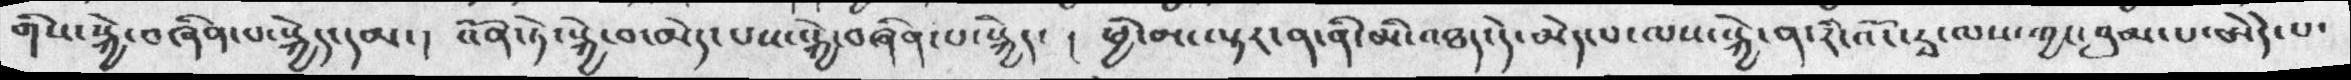གིས་སྐྱེ་བཞིན་པ་སྐྱེད་དམ་།  འོན་ཏེ་སྐྱེ་བ་མེད་པས་སྐྱེ་བཞིན་པ་སྐྱེད་ ། ཕྱི་མ་ལྟར་ན་ནི་མི་འཐད་དེ་མེད་པ་ལས་སྐྱེ་ན་རི་འོང་རྭ་ལས་ཀྱང་བུམ་པ་ཨེདེ་པ་
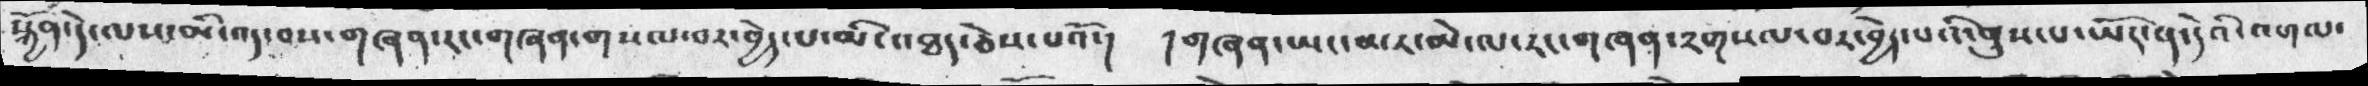སྐྱོན་དེ་ལས་མི་འདུ་བས་གཞན་རང་གཞན་གསལ་བར་བྱེད་པ་མི་འཐད་ཅེས་པའོ་།  །གཞན་ཡང་མར་མེ་ལ་རང་གཞན་༢གསལ་བར་བྱེད་པའི་ནུས་པ་ཡོད་ན་དེའི་འགལ་
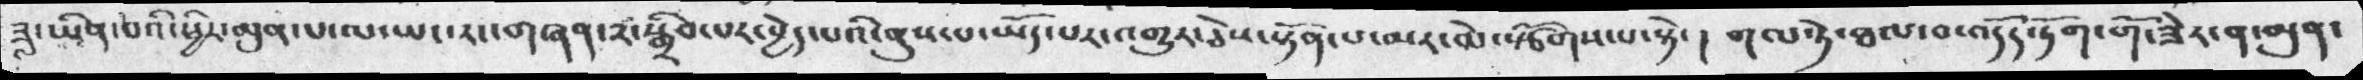ཟླ་ཡིན་པའི་ཕྱིར་མུན་པ་ལ་ཡང་རང་གཞན་༢་སྒྲིབ་པར་བྱེད་པའི་ནུས་པ་ཡོད་པར་འགྱུར་ཅེས་སྟོན་པ་མར་མེ་སྩོགས་པ་སྟེ་། གལ་ཏེ་ཐལ་བ་འདོད་ཏོག་གོ་ཟེར་ན་མུན་
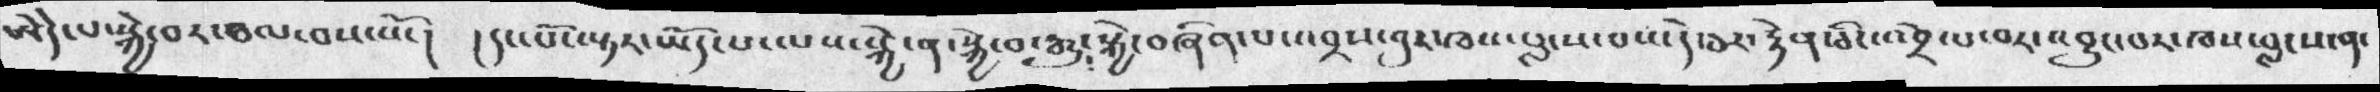ཨེདེ་པ་སྐྱེ་བར་ཐལ་བས་སོ་། །དང་པོ་ལྟར་ཡོད་པ་ལས་སྐྱེ་ན་སྐྱེ་བ་རྒྱུ་སྐྱེ་བཞིན་པ་འབྲས་བུར་ཁས་བླངས་པས་དེ་ཅར་རྟེན་ཅིང་འབྲེལ་བར་འབྱུང་པར་ཁས་བླངས་ན་
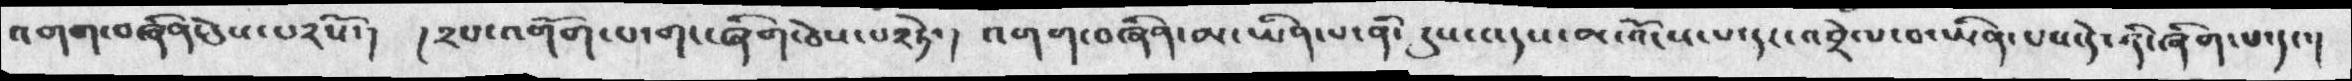འགག་བཞིན་དེས་པ༢སོ་།  །༢པ་འགོག་པ་གང་ཞིག་ཅེས་པ་༢ཏེ་།   འགག་བཞིན་མ་ཡིན་པ་ནི་དུས་འདས་མ་འོངས་པ་དང་འབྲེལ་བ་ཡིན་པས་དེ་ནི་ཞིག་པ་དང་།
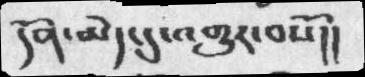དོན་མེད་དུ་འགྱུར་བསོ།།
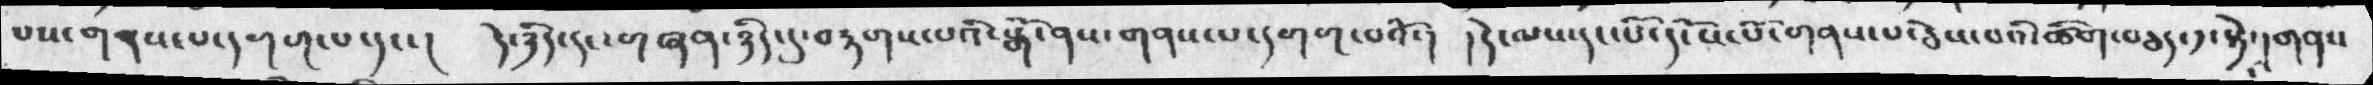པས་གནས་པ་དགག་པ་དང་།   དེ་ཉིད་དང་གཞན་ཉིད་དུ་བརྟགས་པའི་སྒོ་ནས་གནས་པ་དགག་པའོ་།   །དེ་ལས་དང་པོ་དངོས་པོ་གནས་པ་ཅེས་པའི་ཚིག་བཅད་༡་སྟེ།གནས
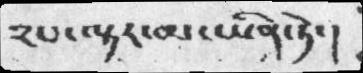༢པ་ལྟར་མ་ཡིན་ཏེ་།
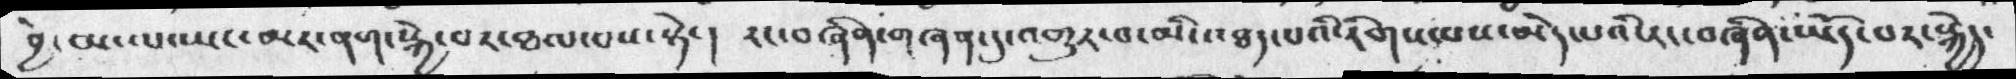བྱེ་མ་ལ་ཡང་མར་ནག་སྐྱེ་བར་ཐལ་པས་སྟེ་།  རང་བཞིན་གཞན་དུ་འགྱུར་བ་མི་འཐད་པའི་རིགས་པས་མེད་པའི་རང་བཞིན་ཡོད་པར་སྐྱེད་
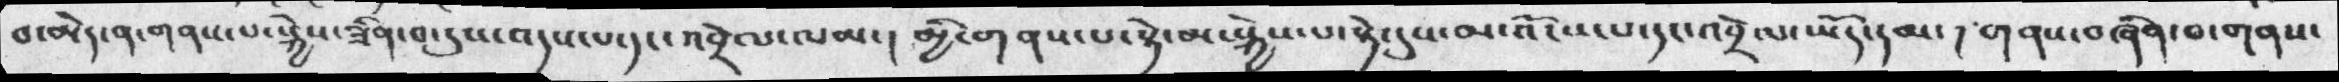བ་མེད་ན་གནས་པ་སྐྱེས་ཟིན་བ་དུས་འདས་པ་དང་འབྲེལ་ལམ་།  མྱི་གནས་པ་སྟེ་མ་སྐྱེས་པ་སྟེ་དུས་མ་འོངས་པ་དང་འབྲེལ་ཡོད་དམ་།  གནས་བཞིན་བ་གནས་
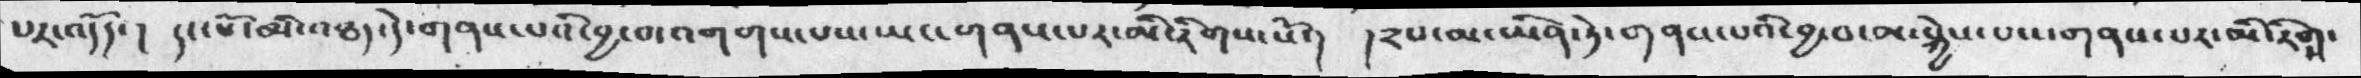པར་འདོད་།    དང་པོ་མི་འཐད་དེ་གནས་པའི་བྱ་བ་འགགས་པས་ཡང་དག་གནས་པར་མི་རིགས་སོ་།   །༢པ་མ་ཡིན་ཏེ་གནས་པའི་བྱ་བ་མ་སྐྱེས་པས་གནས་པར་མི་རིགས་
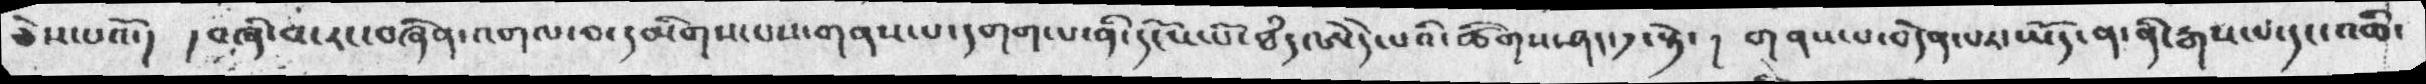ཅེས་པའོ་།  །བཞི་པ་རང་བཞིན་འགལ་བ་དམིགས་པས་གནས་པ་དགག་པ་ནི་དངོས་པོ་ཐཾད་ཨེདེ་པའི་ཚིགས་ཤད་༡་སྟེ་ །  གནས་པ་བདེན་པར་ཡོད་ན་ནི་རྒས་པ་དང་འཆི་
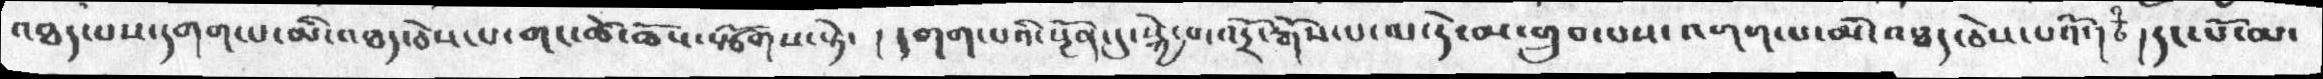འཐད་པས་དགག་པ་མི་འཐད་ཅེས་པ་གང་ཚེ་ཆོས་སྩོགས་སྟེ་   ། དགག་པའི་སྔོན་དུ་སྐྱེ་བ་འདྲོ་རྒོས་པ་མ་དེ་མ་གྲུབ་པསལའགག་པ་མི་འཐད་ཅེས་པའི་   །དང་པོ་མ་
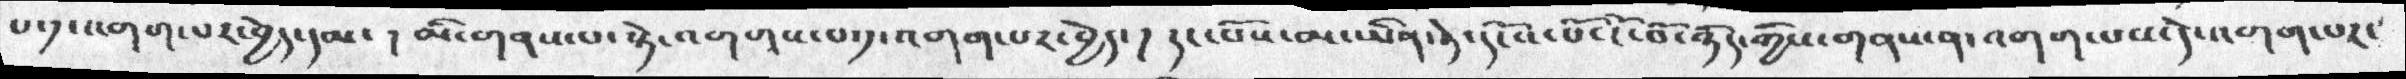པ་༡་འགག་པར་བྱེད་དམ་ ། མི་གནས་པ་སྟེ་འགགས་པ་༡་འགག་པར་བྱེད་ ། དང་པོས་མ་ཡིན་ཏེ་དངོས་པོ་ངོ་བོ་ཉིད་ཀྱིས་གནས་ན་འགག་པས་དེ་འགག་པར་
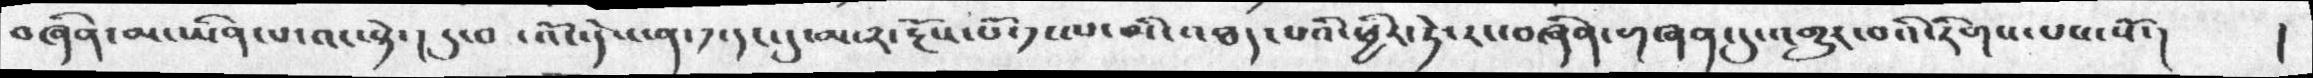བཞིན་མ་ཡིན་པ་འང་སྟེ་ ། དུ་བ་འོང་དེས་ན་༡་དང་དུམ་༢་རྔོས་པོ་༡་ལ་མི་འཐད་པའི་ཕྱིར་ཏེ་རང་བཞིན་གཞན་དུ་འགྱུར་བའི་རིགས་པས་སོ་།  །
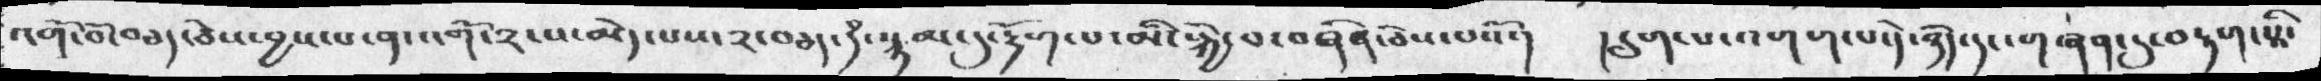འགོ་བོ་བཅད་ཅེས་བྱས་པ་ན་འགོ་༢་པ་མེད་པས་༢་བཅད་དཾ་སྙམ་དི་རྟཔག་པ་མི་སྐྱེ་བ་བཞིན་ཅེས་པསོ་།   །  དྲུག་པ་འགག་པ་དེ་ཉིད་དང་གཞན་དུ་བརྟག་སྟེ་
